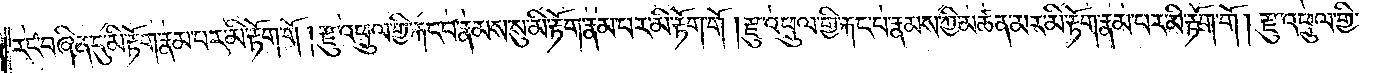རང་བཞིན་དུ་མི་རྟོག་རྣམ་པར་མི་རྟོག་གོ །རྫུ་འཕྲུལ་གྱི་རྐང་པ་རྣམས་སུ་མི་རྟོག་རྣམ་པར་མི་རྟོག་གོ །རྫུ་འཕྲུལ་གྱི་རྐང་པ་རྣམས་ཀྱི་མཚན་མར་མི་རྟོག་རྣམ་པར་མི་རྟོག་གོ །རྫུ་འཕྲུལ་གྱི་
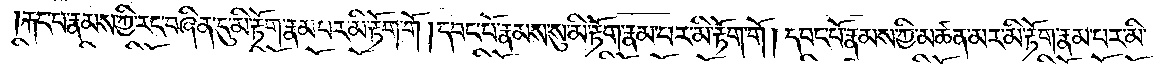རྐང་པ་རྣམས་ཀྱི་རང་བཞིན་དུ་མི་རྟོག་རྣམ་པར་མི་རྟོག་གོ །དབང་པོ་རྣམས་སུ་མི་རྟོག་རྣམ་པར་མི་རྟོག་གོ །དབང་པོ་རྣམས་ཀྱི་མཚན་མར་མི་རྟོག་རྣམ་པར་མི་
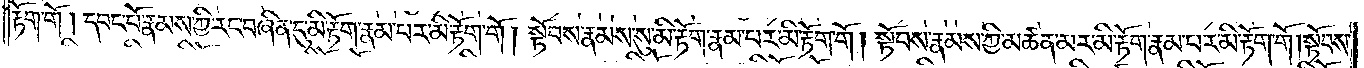རྟོག་གོ །དབང་པོ་རྣམས་ཀྱི་རང་བཞིན་དུ་མི་རྟོག་རྣམ་པར་མི་རྟོག་གོ །སྟོབས་རྣམས་སུ་མི་རྟོག་རྣམ་པར་མི་རྟོག་གོ །སྟོབས་རྣམས་ཀྱི་མཚན་མར་མི་རྟོག་རྣམ་པར་མི་རྟོག་གོ །སྟོབས་
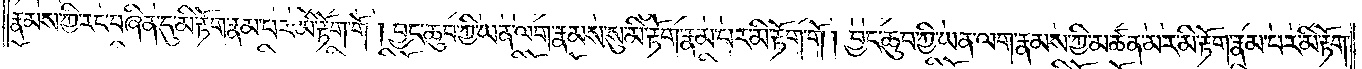རྣམས་ཀྱི་རང་བཞིན་དུ་མི་རྟོག་རྣམ་པར་མི་རྟོག་གོ །བྱང་ཆུབ་ཀྱི་ཡན་ལག་རྣམས་སུ་མི་རྟོག་རྣམ་པར་མི་རྟོག་གོ །བྱང་ཆུབ་ཀྱི་ཡན་ལག་རྣམས་ཀྱི་མཚན་མར་མི་རྟོག་རྣམ་པར་མི་རྟོག་
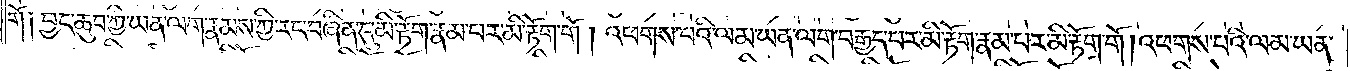གོ་༑བྱང་ཆུབ་ཀྱི་ཡན་ལག་རྣམས་ཀྱི་རང་བཞིན་དུ་མི་རྟོག་རྣམ་པར་མི་རྟོག་གོ །འཕགས་པའི་ལམ་ཡན་ལག་བརྒྱད་པར་མི་རྟོག་རྣམ་པར་མི་རྟོག་གོ །འཕགས་པའི་ལམ་ཡན་
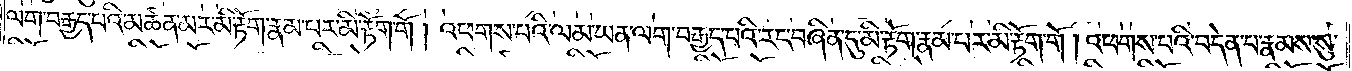ལག་བརྒྱད་པའི་མཚན་མར་མི་རྟོག་རྣམ་པར་མི་རྟོག་གོ །འཕགས་པའི་ལམ་ཡན་ལག་བརྒྱད་པའི་རང་བཞིན་དུ་མི་རྟོག་རྣམ་པར་མི་རྟོག་གོ །འཕགས་པའི་བདེན་པ་རྣམས་སུ་
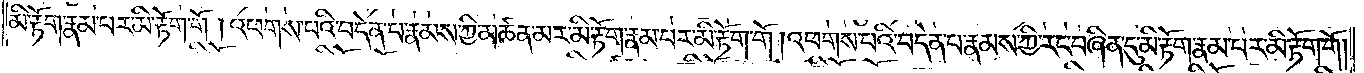མི་རྟོག་རྣམ་པར་མི་རྟོག་གོ །འཕགས་པའི་བདེན་པ་རྣམས་ཀྱི་མཚན་མར་མི་རྟོག་རྣམ་པར་མི་རྟོག་གོ །འཕགས་པའི་བདེན་པ་རྣམས་ཀྱི་རང་བཞིན་དུ་མི་རྟོག་རྣམ་པར་མི་རྟོག་གོ།
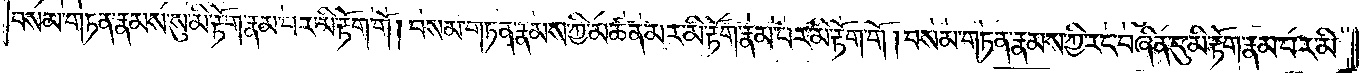བསམ་གཏན་རྣམས་སུ་མི་རྟོག་རྣམ་པར་མི་རྟོག་གོ །བསམ་གཏན་རྣམས་ཀྱི་མཚན་མར་མི་རྟོག་རྣམ་པར་མི་རྟོག་གོ །བསམ་གཏན་རྣམས་ཀྱི་རང་བཞིན་དུ་མི་རྟོག་རྣམ་པར་མི་
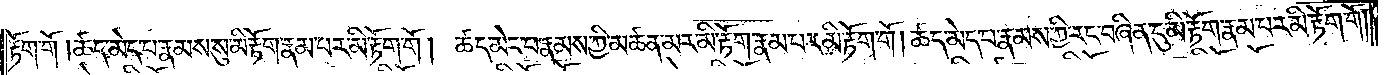རྟོག་གོ །ཚད་མེད་པ་རྣམས་སུ་མི་རྟོག་རྣམ་པར་མི་རྟོག་གོ །ཚད་མེད་པ་རྣམས་ཀྱི་མཚན་མར་མི་རྟོག་རྣམ་པར་མི་རྟོག་གོ །ཚད་མེད་པ་རྣམས་ཀྱི་རང་བཞིན་དུ་མི་རྟོག་རྣམ་པར་མི་རྟོག་གོ །
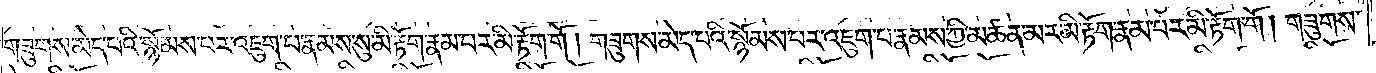གཟུགས་མེད་པའི་སྙོམས་པར་འཇུག་པ་རྣམས་སུ་མི་རྟོག་རྣམ་པར་མི་རྟོག་གོ །གཟུགས་མེད་པའི་སྙོམས་པར་འཇུག་པ་རྣམས་ཀྱི་མཚན་མར་མི་རྟོག་རྣམ་པར་མི་རྟོག་གོ །གཟུགས་
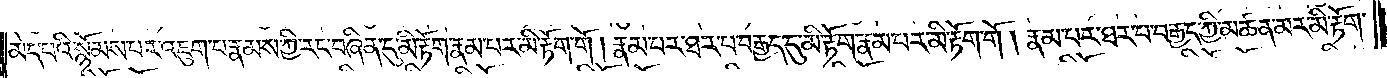མེད་པའི་སྙོམས་པར་འཇུག་པ་རྣམས་ཀྱི་རང་བཞིན་དུ་མི་རྟོག་རྣམ་པར་མི་རྟོག་གོ །རྣམ་པར་ཐར་པ་བརྒྱད་དུ་མི་རྟོག་རྣམ་པར་མི་རྟོག་གོ །རྣམ་པར་ཐར་པ་བརྒྱད་ཀྱི་མཚན་མར་མི་རྟོག་
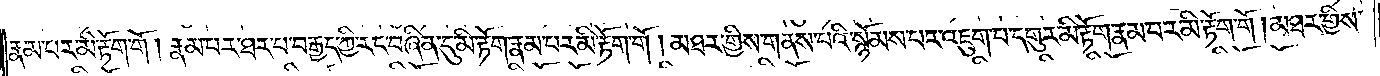རྣམ་པར་མི་རྟོག་གོ །རྣམ་པར་ཐར་པ་བརྒྱད་ཀྱི་རང་བཞིན་དུ་མི་རྟོག་རྣམ་པར་མི་རྟོག་གོ །མཐར་གྱིས་གནས་པའི་སྙོམས་པར་འཇུག་པ་དགུར་མི་རྟོག་རྣམ་པར་མི་རྟོག་གོ །མཐར་གྱིས་
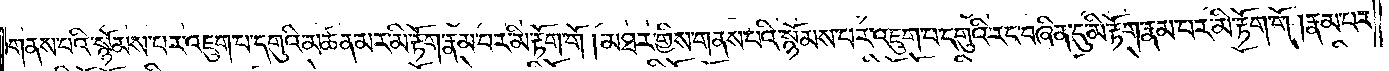གནས་པའི་སྙོམས་པར་འཇུག་པ་དགུའི་མཚན་མར་མི་རྟོག་རྣམ་པར་མི་རྟོག་གོ །མཐར་གྱིས་གནས་པའི་སྙོམས་པར་འཇུག་པ་དགུའི་རང་བཞིན་དུ་མི་རྟོག་རྣམ་པར་མི་རྟོག་གོ །རྣམ་པར་
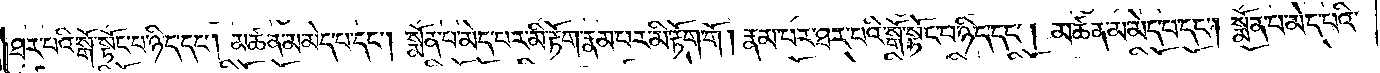ཐར་པའི་སྒོ་སྟོང་པ་ཉིད་དང༌། མཚན་མ་མེད་པ་དང༌། སྨོན་པ་མེད་པར་མི་རྟོག་རྣམ་པར་མི་རྟོག་གོ །རྣམ་པར་ཐར་པའི་སྒོ་སྟོང་པ་ཉིད་དང༌། མཚན་མ་མེད་པ་དང༌། སྨོན་པ་མེད་པའི་
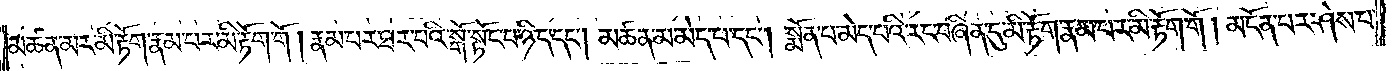མཚན་མར་མི་རྟོག་རྣམ་པར་མི་རྟོག་གོ །རྣམ་པར་ཐར་པའི་སྒོ་སྟོང་པ་ཉིད་དང༌། མཚན་མ་མེད་པ་དང༌། སྨོན་པ་མེད་པའི་རང་བཞིན་དུ་མི་རྟོག་རྣམ་པར་མི་རྟོག་གོ །མངོན་པར་ཤེས་པ་
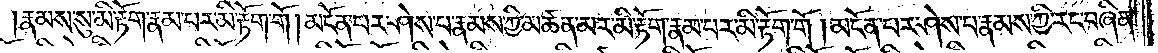རྣམས་སུ་མི་རྟོག་རྣམ་པར་མི་རྟོག་གོ །མངོན་པར་ཤེས་པ་རྣམས་ཀྱི་མཚན་མར་མི་རྟོག་རྣམ་པར་མི་རྟོག་གོ །མངོན་པར་ཤེས་པ་རྣམས་ཀྱི་རང་བཞིན་
